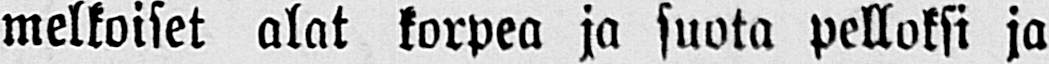melkoiset alat korpea ja suota pelloksi ja
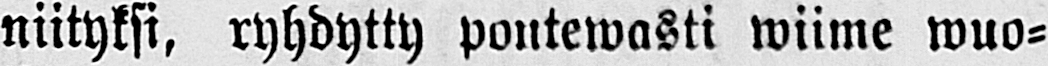niityksi, ryhdytty pontewasti wiime wuo-
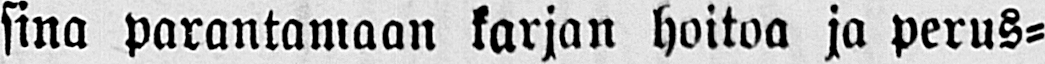sina parantamaan karjan hoitoa ja perus-
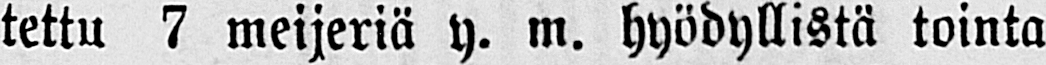tettu 7 meijeriä y. m. hyödyllistä tointa
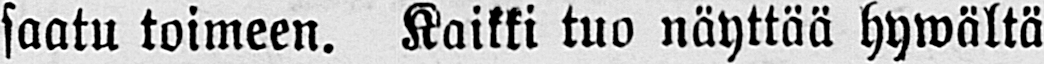saatu toimeen. Kaikki tuo näyttää hywältä
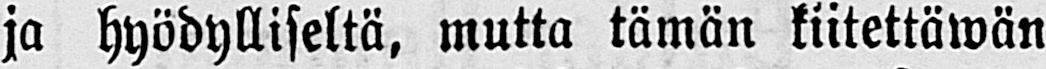ja hyödylliseltä, mutta tämän kiitettäwän
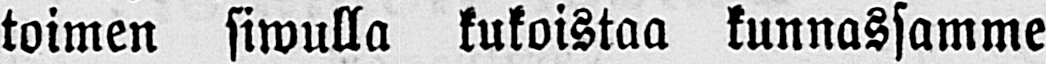toimen siwulla kukoistaa kunnassamme
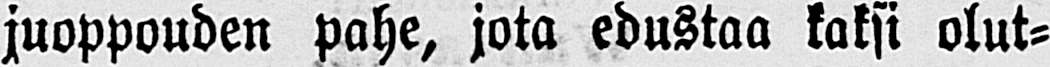juoppouden pahe, jota edustaa kaksi olut-
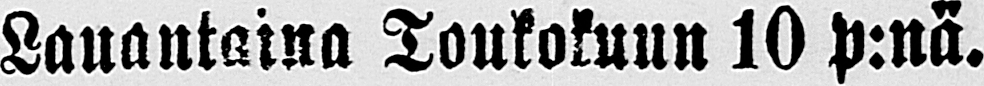Lauantaina Toukokuun 10 p:nä.
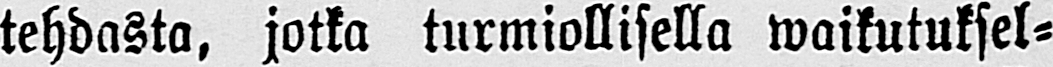tehdasta, jotka turmiollisella waikutuksel-
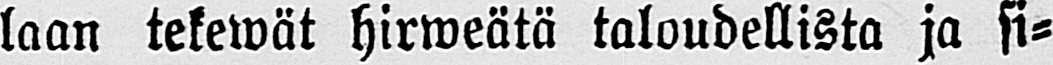laan tekewät hirweätä taloudellista ja si-
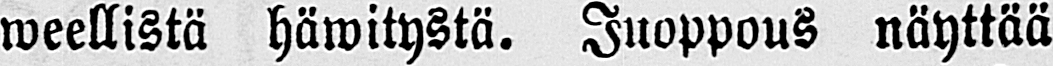weellistä häwitystä. Juoppous näyttää
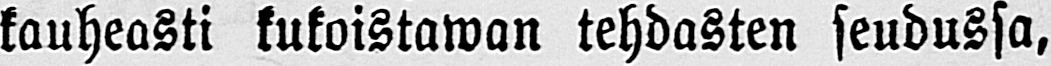kauheasti kukoistawan tehdasten seudussa,
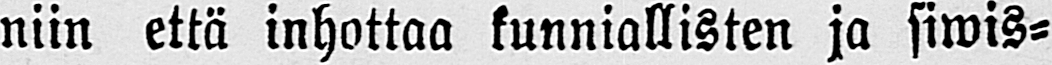niin että inhottaa kunniallisten ja siwis-
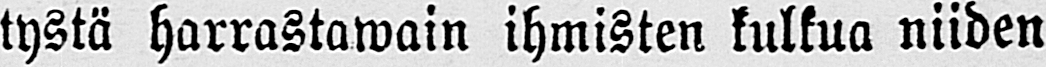tystä harrastawain ihmisten kulkua niiden
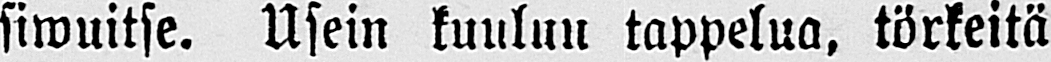siwuitse. Usein kuuluu tappelua, törkeitä
